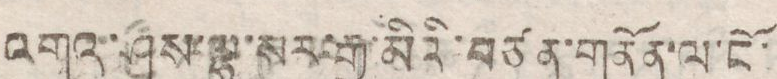འགའ་ཤས་ལྷ་སར་རྒྱ་མིའི་བཙན་གནོན་ལ་ངོ་
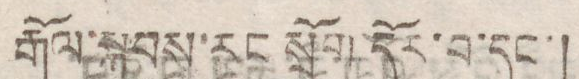རྒོལ་སྐབས་རང་སྲོག་དོར་བ་དང་།
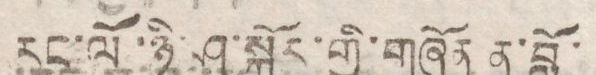རང་ལོ་ཉི་ཤུ་སྐོར་གྱི་གཞོན ནུ་བློ་
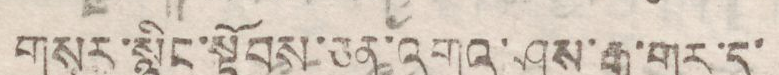གསར་སྙིང་སྟོབས་ཅན་འགའ་ཤས་རྒྱ་གར་དུ་
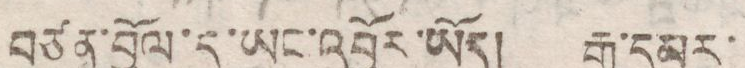བཙན་བྱོལ་དུ་ཡང་འབྱོར་ཡོད། རྒྱ་དམར་
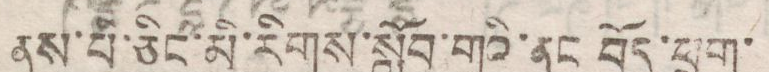ནས་པི་ཅིང་མི་རིགས་སློབ་གྲའི་ནང བོད་ཕྲུག་
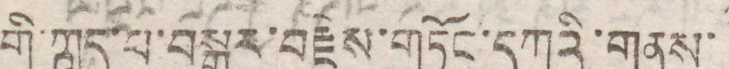གི་ཀླད་པ་བསྒྱུར་བརྗེས་གཏོང་དཀའི་གནས་
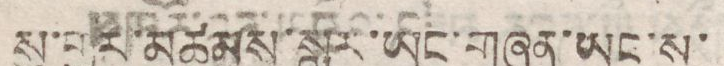སུ་གྱར་མཚམས་སླར་ཡང་གཞན་ཡང་ས་
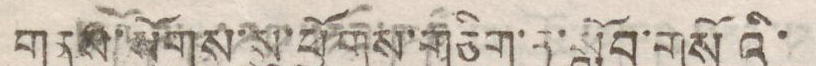གནས་སོགས་སུ་ཕྱོགས་གཅིག་ཏུ་སློབ་གསོའི་
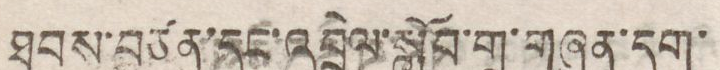ཐབས་བཙན་དང་འབྲེལ་སློབ་གྲྭ་གཞན་དག་
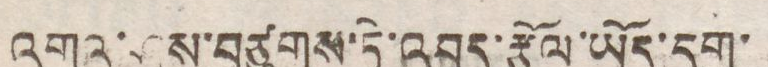འགའ་ཤས་བཙུགས་ཏེ་འབད་རྩོལ་ཡོད་དགུ་
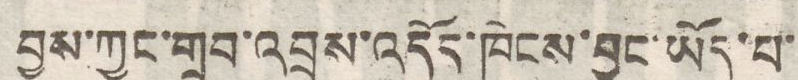བྱས་ཀྱང་གྲུབ་འབྲས་འདོད་ཁེངས་བྱུང་ཡོད་པ་
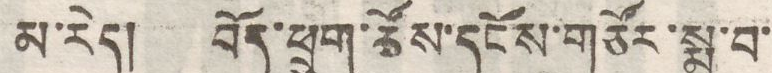མ་རེད། བོད་ཕྲུག་ཚོས་དངོས་གཙོར་སྨྲ་བ་
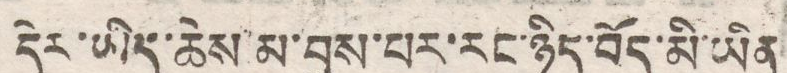དེར་ཡིད་ཆེས་མ་བྱས་པར་རང་ཉིད་བོད་མི་ཡིན
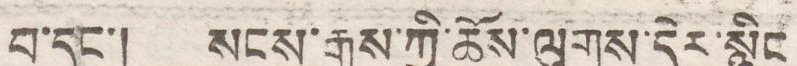བ་དང་། སངས་རྒྱས་ཀྱི་ཆོས་ལུགས་དེར་སྙིང
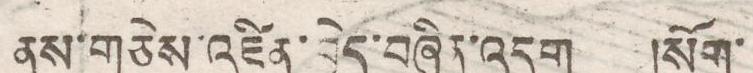ནས་གཅེས་འཛིན་བྱེད་བཞིན་འདུག །སོག་
